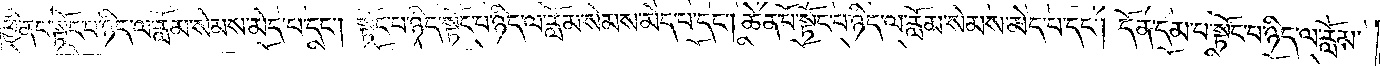ཕྱི་ནང་སྟོང་པ་ཉིད་ལ་རློམ་སེམས་མེད་པ་དང༌། སྟོང་པ་ཉིད་སྟོང་པ་ཉིད་ལ་རློམ་སེམས་མེད་པ་དང༌། ཆེན་པོ་སྟོང་པ་ཉིད་ལ་རློམ་སེམས་མེད་པ་དང༌། དོན་དམ་པ་སྟོང་པ་ཉིད་ལ་རློམ་
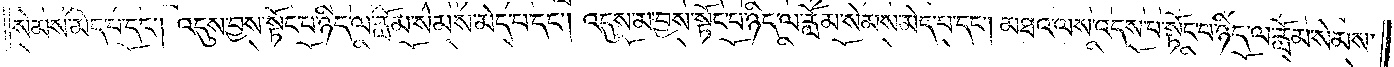སེམས་མེད་པ་དང༌། འདུས་བྱས་སྟོང་པ་ཉིད་ལ་རློམ་སེམས་མེད་པ་དང༌། འདུས་མ་བྱས་སྟོང་པ་ཉིད་ལ་རློམ་སེམས་མེད་པ་དང༌། མཐའ་ལས་འདས་པ་སྟོང་པ་ཉིད་ལ་རློམ་སེམས་
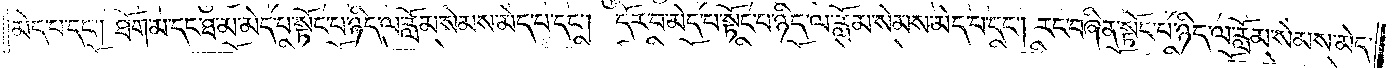མེད་པ་དང༌། ཐོག་མ་དང་ཐ་མ་མེད་པ་སྟོང་པ་ཉིད་ལ་རློམ་སེམས་མེད་པ་དང༌། དོར་བ་མེད་པ་སྟོང་པ་ཉིད་ལ་རློམ་སེམས་མེད་པ་དང༌། རང་བཞིན་སྟོང་པ་ཉིད་ལ་རློམ་སེམས་མེད་
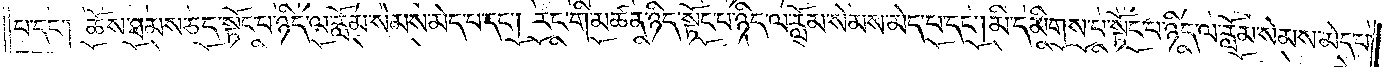པ་དང༌། ཆོས་ཐམས་ཅད་སྟོང་པ་ཉིད་ལ་རློམ་སེམས་མེད་པ་དང༌། རང་གི་མཚན་ཉིད་སྟོང་པ་ཉིད་ལ་རློམ་སེམས་མེད་པ་དང༌། མི་དམིགས་པ་སྟོང་པ་ཉིད་ལ་རློམ་སེམས་མེད་པ་
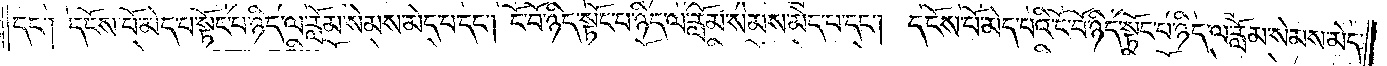དང༌། དངོས་པོ་མེད་པ་སྟོང་པ་ཉིད་ལ་རློམ་སེམས་མེད་པ་དང༌། ངོ་བོ་ཉིད་སྟོང་པ་ཉིད་ལ་རློམ་སེམས་མེད་པ་དང༌། དངོས་པོ་མེད་པའི་ངོ་བོ་ཉིད་སྟོང་པ་ཉིད་ལ་རློམ་སེམས་མེད་
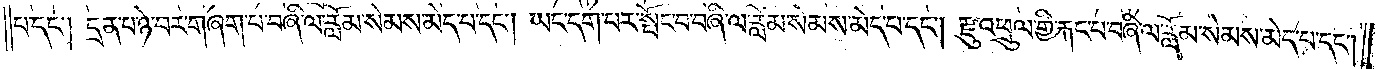པ་དང༌། དྲན་པ་ཉེ་བར་གཞག་པ་བཞི་ལ་རློམ་སེམས་མེད་པ་དང༌། ཡང་དག་པར་སྤོང་བ་བཞི་ལ་རློམ་སེམས་མེད་པ་དང༌། རྫུ་འཕྲུལ་གྱི་རྐང་པ་བཞི་ལ་རློམ་སེམས་མེད་པ་དང༌།
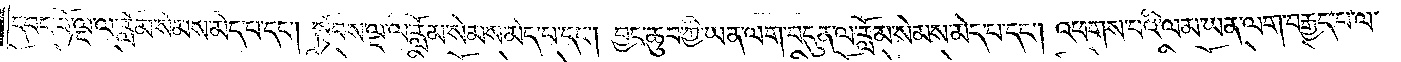དབང་པོ་ལྔ་ལ་རློམ་སེམས་མེད་པ་དང༌། སྟོབས་ལྔ་ལ་རློམ་སེམས་མེད་པ་དང༌། བྱང་ཆུབ་ཀྱི་ཡན་ལག་བདུན་ལ་རློམ་སེམས་མེད་པ་དང༌། འཕགས་པའི་ལམ་ཡན་ལག་བརྒྱད་པ་ལ་
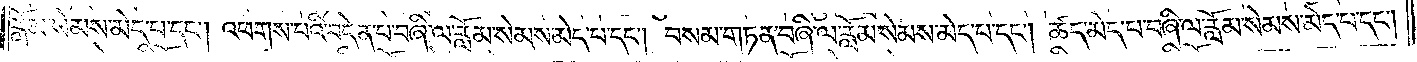རློམ་སེམས་མེད་པ་དང༌། འཕགས་པའི་བདེན་པ་བཞི་ལ་རློམ་སེམས་མེད་པ་དང༌། བསམ་གཏན་བཞི་ལ་རློམ་སེམས་མེད་པ་དང༌། ཚད་མེད་པ་བཞི་ལ་རློམ་སེམས་མེད་པ་དང༌།
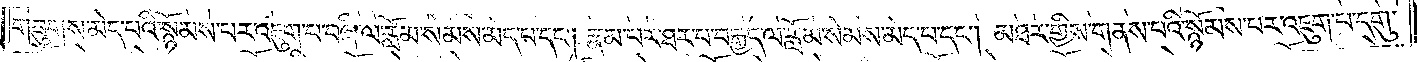གཟུགས་མེད་པའི་སྙོམས་པར་འཇུག་པ་བཞི་ལ་རློམ་སེམས་མེད་པ་དང༌། རྣམ་པར་ཐར་པ་བརྒྱད་ལ་རློམ་སེམས་མེད་པ་དང༌། མཐར་གྱིས་གནས་པའི་སྙོམས་པར་འཇུག་པ་དགུ་
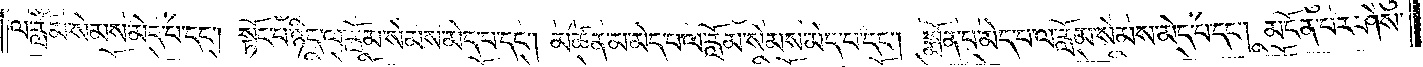ལ་རློམ་སེམས་མེད་པ་དང༌། སྟོང་པ་ཉིད་ལ་རློམ་སེམས་མེད་པ་དང༌། མཚན་མ་མེད་པ་ལ་རློམ་སེམས་མེད་པ་དང༌། སྨོན་པ་མེད་པ་ལ་རློམ་སེམས་མེད་པ་དང༌། མངོན་པར་ཤེས་
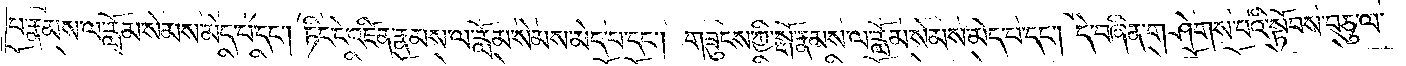པ་རྣམས་ལ་རློམ་སེམས་མེད་པ་དང༌། ཏིང་ངེ་འཛིན་རྣམས་ལ་རློམ་སེམས་མེད་པ་དང༌། གཟུངས་ཀྱི་སྒོ་རྣམས་ལ་རློམ་སེམས་མེད་པ་དང༌། དེ་བཞིན་གཤེགས་པའི་སྟོབས་བཅུ་ལ་
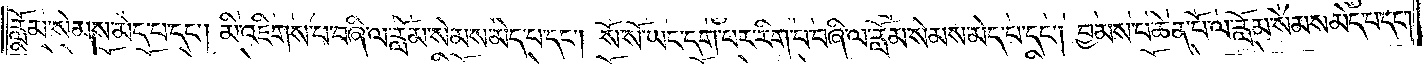རློམ་སེམས་མེད་པ་དང༌། མི་འཇིགས་པ་བཞི་ལ་རློམ་སེམས་མེད་པ་དང༌། སོ་སོ་ཡང་དག་པར་རིག་པ་བཞི་ལ་རློམ་སེམས་མེད་པ་དང༌། བྱམས་པ་ཆེན་པོ་ལ་རློམ་སེམས་མེད་པ་དང༌།
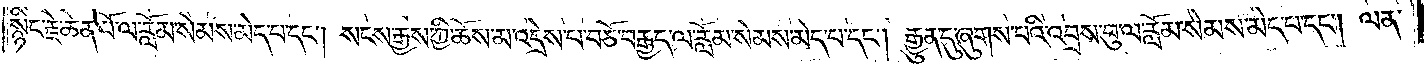སྙིང་རྗེ་ཆེན་པོ་ལ་རློམ་སེམས་མེད་པ་དང༌། སངས་རྒྱས་ཀྱི་ཆོས་མ་འདྲེས་པ་བཅོ་བརྒྱད་ལ་རློམ་སེམས་མེད་པ་དང༌། རྒྱུན་དུ་ཞུགས་པའི་འབྲས་བུ་ལ་རློམ་སེམས་མེད་པ་དང༌། ལན་
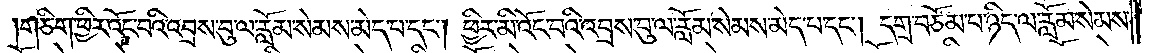གཅིག་ཕྱིར་འོང་བའི་འབྲས་བུ་ལ་རློམ་སེམས་མེད་པ་དང༌། ཕྱིར་མི་འོང་བའི་འབྲས་བུ་ལ་རློམ་སེམས་མེད་པ་དང༌། དགྲ་བཅོམ་པ་ཉིད་ལ་རློམ་སེམས་
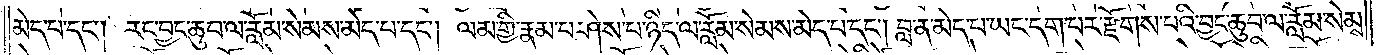མེད་པ་དང༌། རང་བྱང་ཆུབ་ལ་རློམ་སེམས་མེད་པ་དང༌། ལམ་གྱི་རྣམ་པ་ཤེས་པ་ཉིད་ལ་རློམ་སེམས་མེད་པ་དང༌། བླ་ན་མེད་པ་ཡང་དག་པར་རྫོགས་པའི་བྱང་ཆུབ་ལ་རློམ་སེམས་
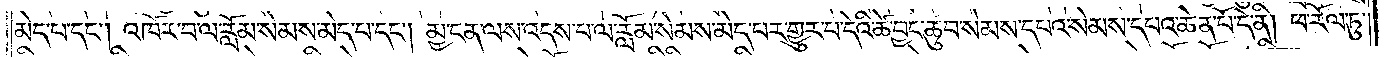མེད་པ་དང༌། འཁོར་བ་ལ་རློམ་སེམས་མེད་པ་དང༌། མྱ་ངན་ལས་འདས་པ་ལ་རློམ་སེམས་མེད་པར་གྱུར་པ་དེའི་ཚེ་བྱང་ཆུབ་སེམས་དཔའ་སེམས་དཔའ་ཆེན་པོ་དེ་ནི། ཕ་རོལ་ཏུ་
